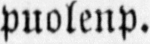puolenp.
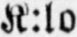K:lo 9
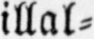illal-
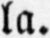la.
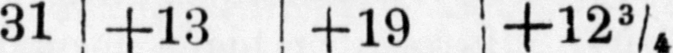31 +13 +19 +12¾.
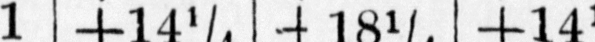1 +14¼ +18¼ +14½
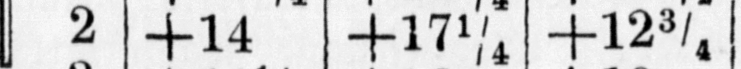2 +14 +17¼ 12¾
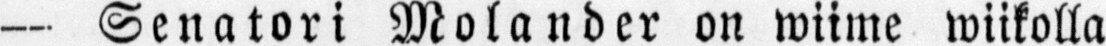— Senatori Molander on wiime wiikolla
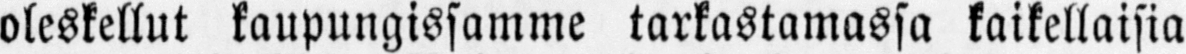oleskellut kaupungissamme tarkastamassa kaikellaisia
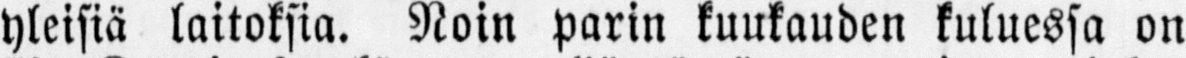yleisiä laitoksia. Noin parin kuukauden kuluessa on
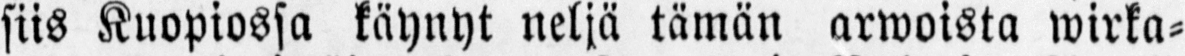siis Kuopiossa käynyt neljä tämän arwoista wirka-
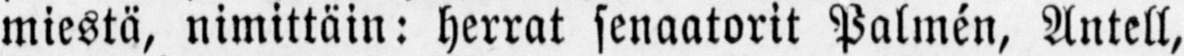miestä, nimittäin: herrat senaatorit Palmén, Antell,
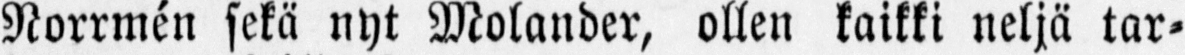Norrmén sekä nyt Molander, ollen kaikki neljä tar-
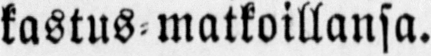kastus-matkoillansa.
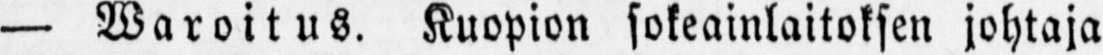— Waroitus. Kuopion sokeainlaitoksen johtaja
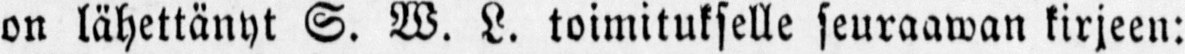on lähettänyt S. W. L. toimitukselle seuraawan kirjeen:
